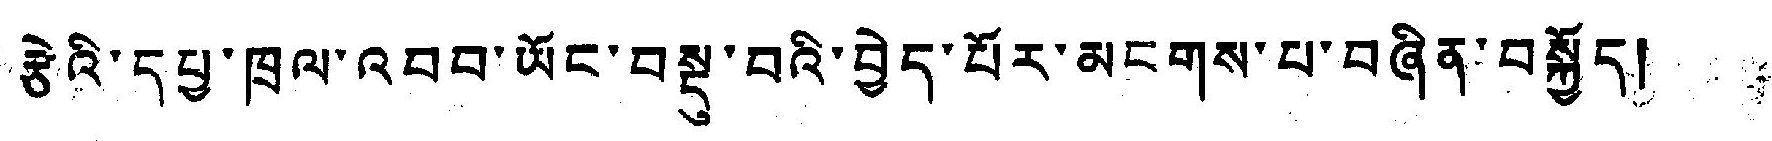རྩེའི་དཔྱ་ཁྲལ་འབབ་ཡོང་བསྡུ་བའི་བྱེད་པོར་མངགས་པ་བཞིན་བསྐྱོད།
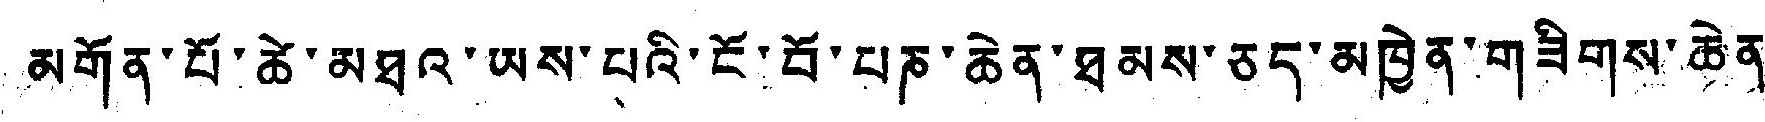མགོན་པོ་ཚེ་མཐའ་ཡས་པའི་ངོ་བོ་པཎ་ཆེན་ཐམས་ཅད་མཁྱེན་གཟིགས་ཆེན་་
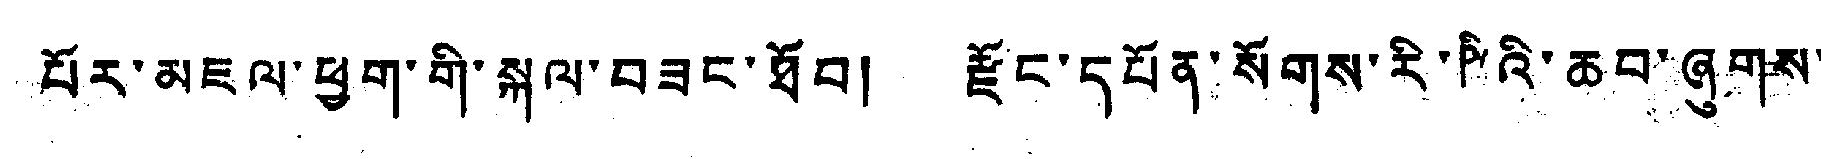པོར་མཇལ་ཕྱག་གི་སྐལ་བཟང་ཐོབ། རྫོང་དཔོན་སོགས་རི་ཥིའི་ཆབ་ཞུགས་
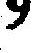9
